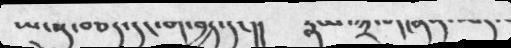ཡོངསུ་བཅད་དང་ག་བྱེད་དང།།  རྣམ་༣་གཞན་ཡན་ལ
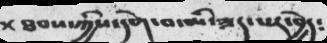ཐབས་ཀྱིས་དགེ་བ་མི་ཟད་པར་བྱེད༴
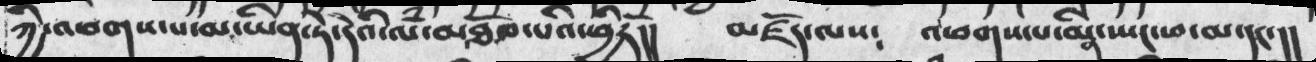ཀྱི་འཕགས་པ་མ་ཡིན་ཏེ་དེའི་ལཾ་མཐོབ་པའི་ཕྱིར།།  མཛོད་ལས༴  འཕགས་པ་མིན་སྤང་ཕ་མ་དང་།།
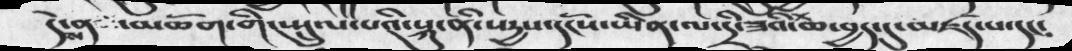དེས་ན་མཆོག་གི་སྤྲུལ་པའི་སྐུ་ནི་སདྱས་དངོས་ཡིན་ལ་དྲི་ཟའི་ཆ་བྱད་དུ་མཛད་པ་དང༴
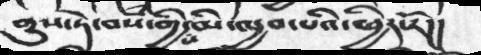ནུས་ཏེ་བསཾ་གྱིས་མི་ཁྱབ་པའི་ཕྱིར་རོ།།
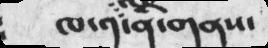ཁ་༡་ནི་གནས་
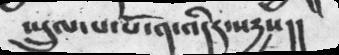སྤྲུལ་པ་པོ་༡་འདིར་སདྱས།།
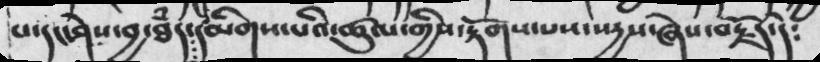པ་དང་ཤེས་བྱ་ཐཾད་དམིགས་པའི་ཚུལ་གྱིས་རྟོགས་པས་སདྱས་ཞེས་བརྗོད་དེ༴
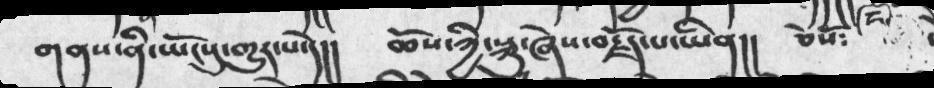གནས་ནི་ཡོངསུ་གྱུར་པ་དེ།།  ཆོས་ཀྱི་སྐུ་ཞེས་བརྗོད་པ་ཡིན།།  ཅེསོ༴  ང་
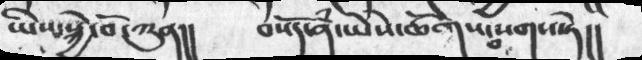ཡིས་སྐྱེ་བོ་ཀུན།།  བསོད་ནཾ་ཡེེས་ཚོགས་བསགས་ཏེ།།
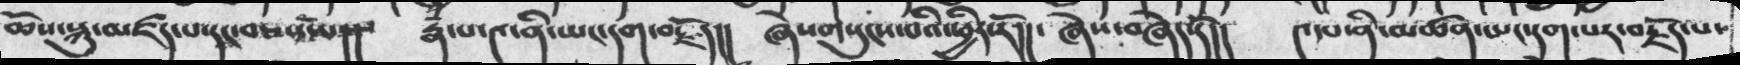ཆོས་སྐུ་མཛད་པ་དང་བཅས་པ།།  རྣཾ་པ་༤་ནི་ཡང་དག་བརྗོད།།  ཞེས་གསུངས་པའི་ཕྱིར་རོ།།  ཞེས་བཞེད་དོ།།   ༤་པ་ནི་མཚན་ཡང་དག་པར་བརྗོད་པ་
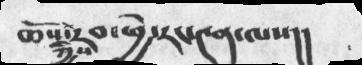ཆོས་ཀྱི་རབ་ཕྱེ་རང་༤ན་ལས།།
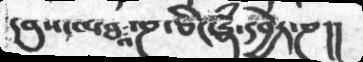དབུས་མཐའ་ཎ་ཅིང་རྣཾ་དབྱེར་ཎ།།
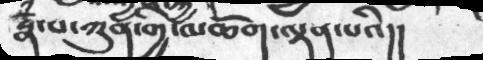རྣཾ་པ་ཀུན་གྱི་མཆོག་ལྡན་པའི།།
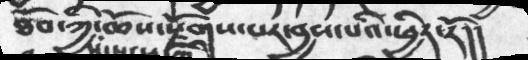ཐོབ་ཀྱི་ཆོས་རྫོགས་པར་བྱས་པའི་ཕྱིར་རོ།།
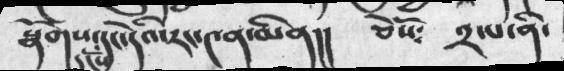སྣོགས་དངོས་དང་དེའི་རང་༤བ་མིན།།      ཅེསོ༴    ༢་པ་ནི་
